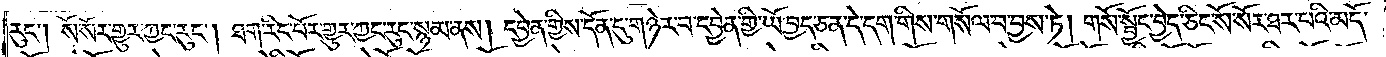རུང༌། སོ་སོར་གྱུར་ཀྱང་རུང༌། ཐག་རིང་པོར་གྱུར་ཀྱང་རུང་སྙམ་ནས། དབྱེན་གྱིས་དོན་དུ་གཉེར་བ་དབྱེན་གྱི་ཡོ་བྱད་ཅན་དེ་དག་གིས་གསོལ་བ་བྱས་ཏེ། གསོ་སྦྱོང་བྱེད་ཅིང་སོ་སོར་ཐར་པའི་མདོ་
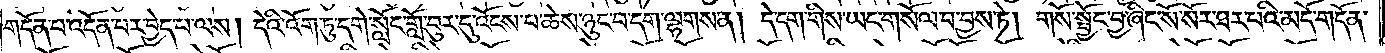གདོན་པ་འདོན་པར་བྱེད་པ་ལས། དེའི་འོག་ཏུ་དགེ་སློང་གློ་བུར་དུ་འོངས་པ་ཆེས་ཉུང་བ་དག་ལྷགས་ན། དེ་དག་གིས་ཡང་གསོལ་བ་བྱས་ཏེ། གསོ་སྦྱོང་བྱ་ཞིང་སོ་སོར་ཐར་པའི་མདོ་གདོན་
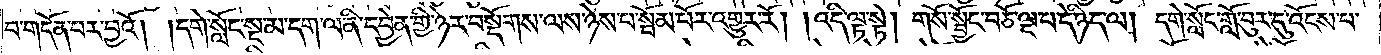བ་གདོན་པར་བྱའོ། །དགེ་སློང་སྔ་མ་དག་ལ་ནི་དབྱེན་གྱི་ཉེར་བསྡོགས་ལས་ཉེས་པ་སྦོམ་པོར་འགྱུར་རོ། །འདི་ལྟ་སྟེ། གསོ་སྦྱོང་བཅོ་ལྔ་པ་དེ་ཉིད་ལ། དགེ་སློང་གློ་བུར་དུ་འོངས་པ་
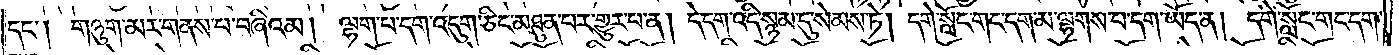དང༌། གཉུག་མར་གནས་པ་བཞིའམ། ལྷག་པ་དག་འདུག་ཅིང་མཐུན་པར་གྱུར་པ་ན། དེ་དག་འདི་སྙམ་དུ་སེམས་ཏེ། དགེ་སློང་གང་དག་མ་ལྷགས་པ་དག་ཡོད་ན། དགེ་སློང་གང་དག་
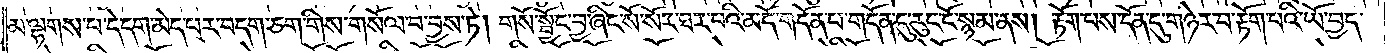མ་ལྷགས་པ་དེ་དག་མེད་པར་བདག་ཅག་གིས་གསོལ་བ་བྱས་ཏེ། གསོ་སྦྱོང་བྱ་ཞིང་སོ་སོར་ཐར་པའི་མདོ་གདོན་པ་གདོན་དུ་རུང་ངོ་སྙམ་ནས། རྟོག་པས་དོན་དུ་གཉེར་བ་རྟོག་པའི་ཡོ་བྱད་
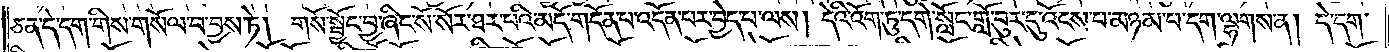ཅན་དེ་དག་གིས་གསོལ་བ་བྱས་ཏེ། གསོ་སྦྱོང་བྱ་ཞིང་སོ་སོར་ཐར་པའི་མདོ་གདོན་པ་འདོན་པར་བྱེད་པ་ལས། དེའི་འོག་ཏུ་དགེ་སློང་གློ་བུར་དུ་འོངས་པ་མཉམ་པ་དག་ལྷགས་ན། དེ་དག་
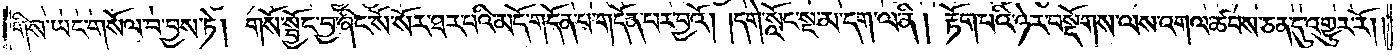གིས་ཡང་གསོལ་བ་བྱས་ཏེ། གསོ་སྦྱོང་བྱ་ཞིང་སོ་སོར་ཐར་པའི་མདོ་གདོན་པ་གདོན་པར་བྱའོ། །དགེ་སློང་སྔ་མ་དག་ལ་ནི། རྟོག་པའི་ཉེར་བསྡོགས་ལས་འགལ་ཚབས་ཅན་དུ་འགྱུར་རོ། །
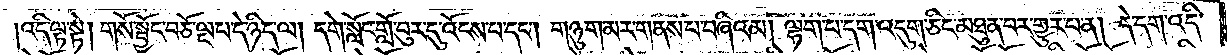འདི་ལྟ་སྟེ། གསོ་སྦྱོང་བཅོ་ལྔ་པ་དེ་ཉིད་ལ། དགེ་སློང་གློ་བུར་དུ་འོངས་པ་དང༌། གཉུག་མར་གནས་པ་བཞིའམ། ལྷག་པ་དག་འདུག་ཅིང་མཐུན་པར་གྱུར་པ་ན། དེ་དག་འདི་
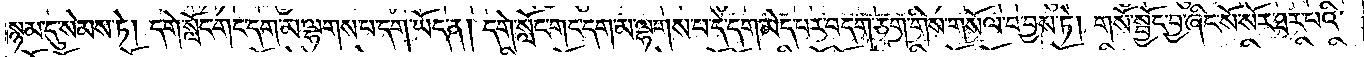སྙམ་དུ་སེམས་ཏེ། དགེ་སློང་གང་དག་མ་ལྷགས་པ་དག་ཡོད་ན། དགེ་སློང་གང་དག་མ་ལྷགས་པ་དེ་དག་མེད་པར་བདག་ཅག་གིས་གསོལ་བ་བྱས་ཏེ། གསོ་སྦྱོང་བྱ་ཞིང་སོ་སོར་ཐར་པའི་
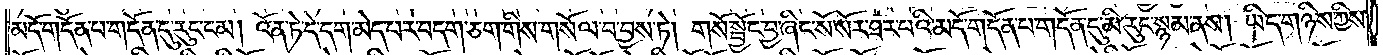མདོ་གདོན་པ་གདོན་དུ་རུང་ངམ། འོན་ཏེ་དེ་དག་མེད་པར་བདག་ཅག་གིས་གསོལ་བ་བྱས་ཏེ། གསོ་སྦྱོང་བྱ་ཞིང་སོ་སོར་ཐར་པའི་མདོ་གདོན་པ་གདོན་དུ་མི་རུང་སྙམ་ནས། ཡིད་གཉིས་ཀྱིས་
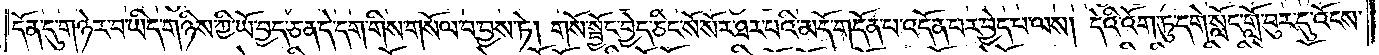དོན་དུ་གཉེར་བ་ཡིད་གཉིས་ཀྱི་ཡོ་བྱད་ཅན་དེ་དག་གིས་གསོལ་བ་བྱས་ཏེ། གསོ་སྦྱོང་བྱེད་ཅིང་སོ་སོར་ཐར་པའི་མདོ་གདོན་པ་འདོན་པར་བྱེད་པ་ལས། དེའི་འོག་ཏུ་དགེ་སློང་གློ་བུར་དུ་འོངས་
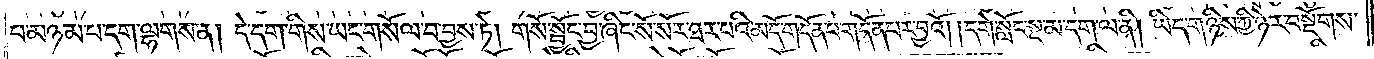པ་མཉམ་པ་དག་ལྷགས་ན། དེ་དག་གིས་ཡང་གསོལ་བ་བྱས་ཏེ། གསོ་སྦྱོང་བྱ་ཞིང་སོ་སོར་ཐར་པའི་མདོ་གདོན་པ་གདོན་པར་བྱའོ། །དགེ་སློང་སྔ་མ་དག་ལ་ནི། ཡིད་གཉིས་ཀྱི་ཉེར་བསྡོགས་
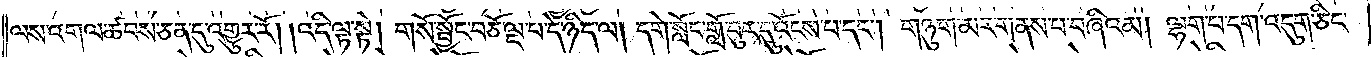ལས་འགལ་ཚབས་ཅན་དུ་འགྱུར་རོ། །འདི་ལྟ་སྟེ། གསོ་སྦྱོང་བཅོ་ལྔ་པ་དེ་ཉིད་ལ། དགེ་སློང་གློ་བུར་དུ་འོངས་པ་དང༌། གཉུག་མར་གནས་པ་བཞིའམ། ལྷག་པ་དག་འདུག་ཅིང་
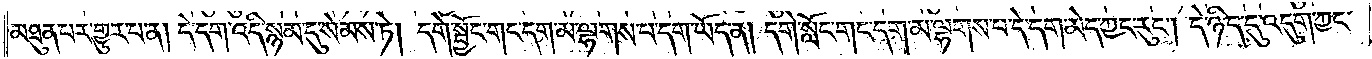མཐུན་པར་གྱུར་པ་ན། དེ་དག་འདི་སྙམ་དུ་སེམས་ཏེ། དགེ་སྦྱོང་གང་དག་མ་ལྷགས་པ་དག་ཡོད་ན། དགེ་སློང་གང་དག་མ་ལྷགས་པ་དེ་དག་མེད་ཀྱང་རུང༌། དེ་ཉིད་དུ་འདུག་ཀྱང་
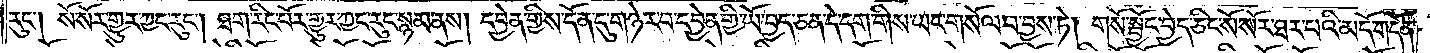རུང༌། སོ་སོར་གྱུར་ཀྱང་རུང༌། ཐག་རིང་པོར་གྱུར་ཀྱང་རུང་སྙམ་ནས། དབྱེན་གྱིས་དོན་དུ་གཉེར་བ་དབྱེན་གྱི་ཡོ་བྱད་ཅན་དེ་དག་གིས་ཡང་གསོལ་བ་བྱས་ཏེ། གསོ་སྦྱོང་བྱེད་ཅིང་སོ་སོར་ཐར་པའི་མདོ་གདོན་
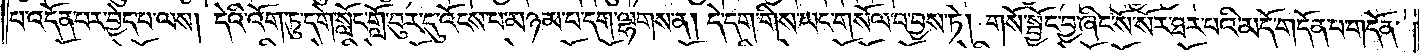པ་འདོན་པར་བྱེད་པ་ལས། དེའི་འོག་ཏུ་དགེ་སློང་གློ་བུར་དུ་འོངས་པ་མཉམ་པ་དག་ལྷགས་ན། དེ་དག་གིས་ཡང་གསོལ་བ་བྱས་ཏེ། གསོ་སྦྱོང་བྱ་ཞིང་སོ་སོར་ཐར་པའི་མདོ་གདོན་པ་གདོན་
